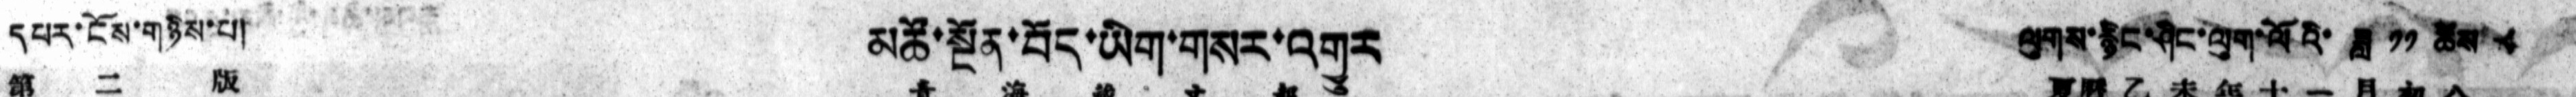དཔར་ངོས་གཉིས་པ།   མཚོ་སྔོན་བོད་ཡིག་གསར་འགྱུར   ལུགས་རྙིང་ཤིང་ལུག་ལོའི་ཟླ་ ༡༡ ཚེས་ས ༨
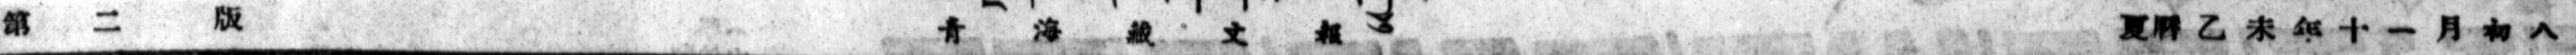第 二 版 青 海 藏 文 報 夏曆乙未年十一月初八
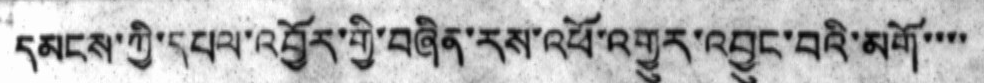དམངས་ཀྱི་དཔལ་འབྱོར་གྱི་བཞིན་རས་འཕོ་འགྱུར་འབྱུང་བའི་མགོ་་་་
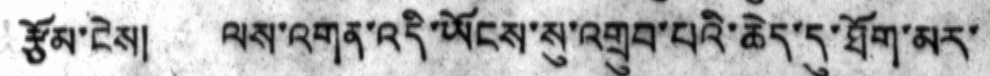རྩོམ་ངེས། ལས་འགན་འདི་ཡོངས་སུ་འགྲུབ་པའི་ཆེད་དུ་ཐོག་མར་
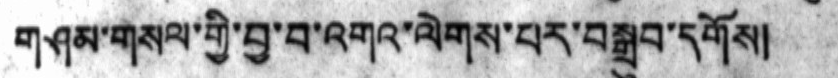གཤམ་གསལ་གྱི་བྱ་བ་འགའ་ལེགས་པར་བསྒྲུབ་དགོས།
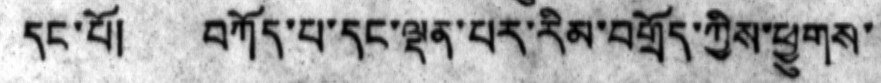དང་པོ།  བཀོད་པ་དང་ལྡན་པར་རིམ་བགྲོད་ཀྱིས་ཕྱུགས་
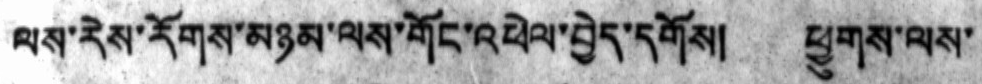ལས་རེས་རོགས་མཉམ་ལས་གོང་འཕེལ་བྱེད་དགོས།  ཕྱུགས་ལས་
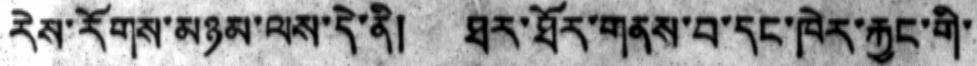རེས་རོགས་མཉམ་ལས་དེ་ནི།  ཐར་ཐོར་གནས་བ་དང་ཁེར་རྐྱང་གི་
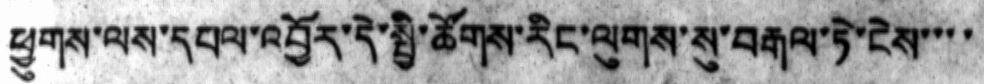ཕྱུགས་ལས་དཔལ་འབྱོར་དེ་སྤྱི་ཚོགས་རིང་ལུགས་སུ་བརྒལ་ཏེ་ངེས་་་་
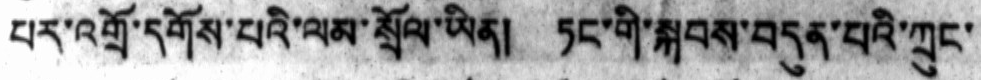པར་འགྲོ་དགོས་པའི་ལམ་སྲོལ་ཡིན།  ཏང་གི་སྐབས་བདུན་པའི་ཀྲུང་
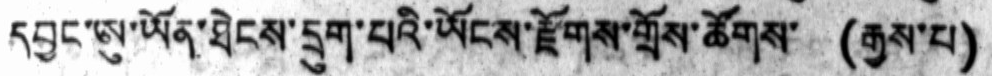དབྱང་ཨུ་ཡོན་ཐེངས་དྲུག་པའི་ཡོངས་རྫོགས་གྲོས་ཚོགས་ (རྒྱས་པ)
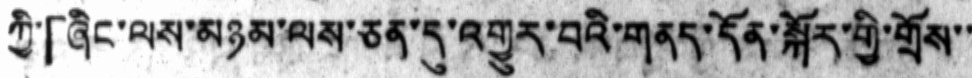ཀྱི་「ཞིང་ལས་མཉམ་ལས་ཅན་དུ་འགྱུར་བའི་གནད་དོན་སྐོར་གྱི་གྲོས་་
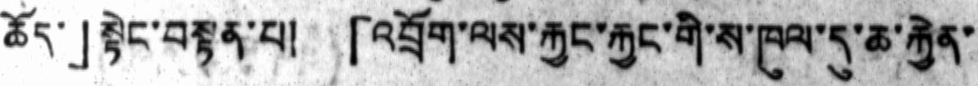ཆོད་」སྟེང་བསྟན་པ། 「འབྲོག་ལས་རྐྱང་རྐྱང་གི་ས་ཁུལ་དུ་ཆ་རྐྱེན་
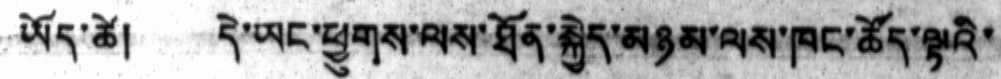ཡོད་ཚེ། དེ་ཡང་ཕྱུགས་ལས་ཐོན་སྐྱེད་མཉམ་ལས་ཁང་ཚོད་ལྟའི་
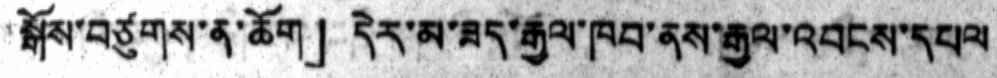སྒོས་བཙུགས་ན་ཆོག」དེར་མ་ཟད་རྒྱལ་ཁབ་ནས་རྒྱལ་འབངས་དཔལ
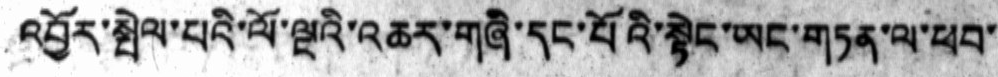འབྱོར་སྤེལ་པའི་ལོ་ལྔའི་འཆར་གཞི་དང་པོའི་སྟེང་ཡང་གཏན་ལ་ཕབ་
